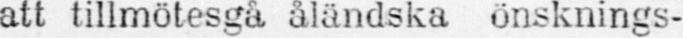att tillmötesgå åländska önsknings-
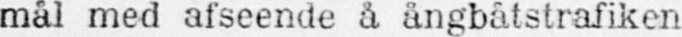mål med afseende å ångbåtstrafiken
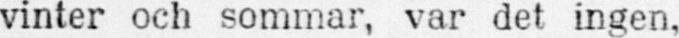vinter och sommar, var det ingen,
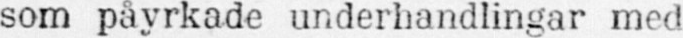som påyrkade underhandlingar med
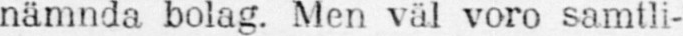nämnda bolag. Men väl voro samtli-
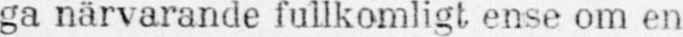ga närvarande fullkomligt ense om en
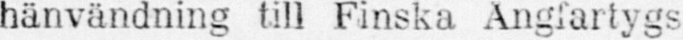hänvändning till Finska Ångfartygs
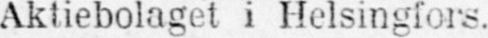Aktiebolaget i Helsingfors.
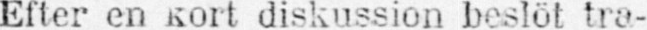Efter en kort diskussion beslöt tra-
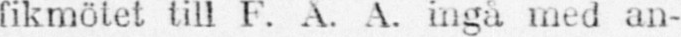fikmötet till F. Å. A. ingå med an-
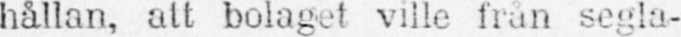hållan, att bolaget ville från segla-
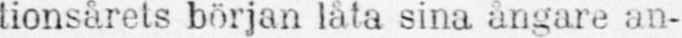tionsårets början låta sina ångare an-
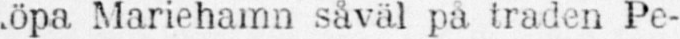löpa Mariehamn såväl pa traden Pe-
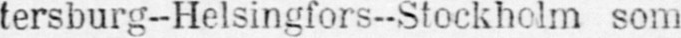tersburg-Helsingfors-Stockholm som
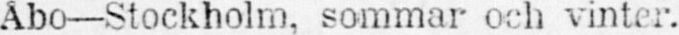Åbo—Stockholm, sommar och vinter.
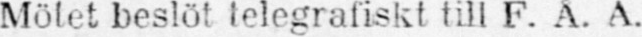Mötet beslöt telegrafiskt till F. Å. A.
